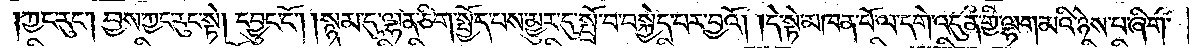ཀྱང་རུང༌། བྱས་ཀྱང་རུང་སྟེ། དབྱུང་ངོ༌། །སྙམ་དུ་ལྷན་ཅིག་སྤྱོད་པས་མྱུར་དུ་སྤྲོ་བ་བསྐྱེད་པར་བྱའོ། །དེ་སྟེ་མཁན་པོ་ལ་དགེ་འདུན་གྱི་ལྷག་མའི་ཉེས་པ་ཞིག་
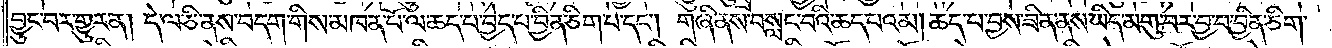བྱུང་བར་གྱུར་ན། དེ་ལ་ཅི་ནས་བདག་གིས་མཁན་པོ་ལ་ཆད་པ་བྱེད་པ་བྱིན་ཅིག་པ་དང༌། གཞི་ནས་བསླང་བའི་ཆད་པའམ། ཆད་པ་བྱས་ཟིན་ནས་ཡིད་མགུ་བར་བྱ་བ་བྱིན་ཅིག་
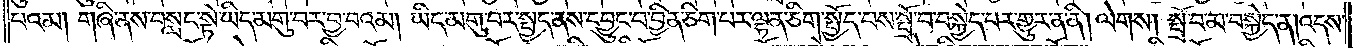པའམ། གཞི་ནས་བསླང་སྟེ་ཡིད་མགུ་བར་བྱ་བའམ། ཡིད་མགུ་བར་སྤྱད་ནས་དབྱུང་བ་བྱིན་ཅིག་པར་ལྷན་ཅིག་སྤྱོད་པས་སྤྲོ་བ་བསྐྱེད་པར་གྱུར་ན་ནི། ལེགས། སྤྲོ་བ་མ་བསྐྱེད་ན། འདས་
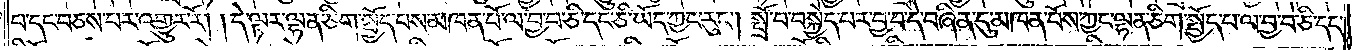པ་དང་བཅས་པར་འགྱུར་རོ། །དེ་ལྟར་ལྷན་ཅིག་སྤྱོད་པས་མཁན་པོ་ལ་བྱ་བ་ཅི་དང་ཅི་ཡོད་ཀྱང་རུང༌། སྤྲོ་བ་བསྐྱེད་པར་བྱ་བ་དེ་བཞིན་དུ་མཁན་པོས་ཀྱང་ལྷན་ཅིག་སྤྱོད་པ་ལ་བྱ་བ་ཅི་དང་
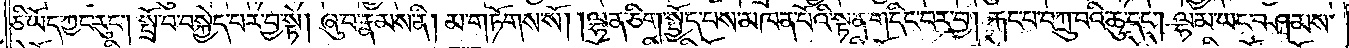ཅི་ཡོད་ཀྱང་རུང༌། སྤྲོ་བ་བསྐྱེད་པར་བྱ་སྟེ། ཞུ་བ་རྣམས་ནི། མ་གཏོགས་སོ། །ལྷན་ཅིག་སྤྱོད་པས་མཁན་པོའི་སྟན་གདིང་བར་བྱ། རྐང་པ་བཀྲུ་བའི་ཆུ་དང༌། ལྷམ་ཡང་བཤམས་
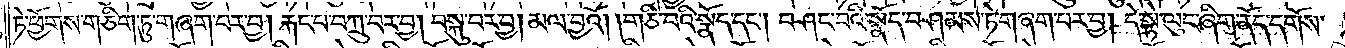ཏེ་ཕྱོགས་གཅིག་ཏུ་གཞག་པར་བྱ། རྐང་པ་བཀྲུ་བར་བྱ། བསྐུ་བར་བྱ། མལ་བྱའོ། །གཅི་བའི་སྣོད་དང༌། བཤང་བའི་སྣོད་བཤམས་ཏེ་གཞག་པར་བྱ། དེ་སྟེ་ལུང་ཞིག་ནོད་དགོས་
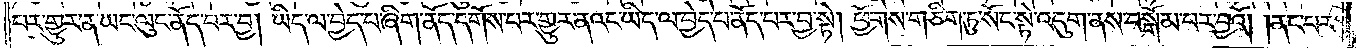པར་གྱུར་ན་ཡང་ལུང་ནོད་པར་བྱ། ཡིད་ལ་བྱེད་པ་ཞིག་ནོད་དགོས་པར་གྱུར་ནའང་ཡིད་ལ་བྱེད་པ་ནོད་པར་བྱ་སྟེ། ཕྱོགས་གཅིག་ཏུ་སོང་སྟེ་འདུག་ནས་བསྒོམ་པར་བྱའོ། །ནང་པར་
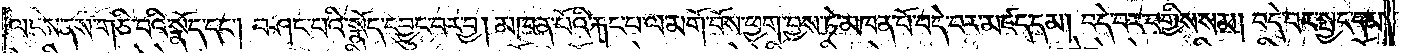ལངས་ནས་གཅི་བའི་སྣོད་དང༌། བཤང་བའི་སྣོད་དབྱུང་བར་བྱ། མཁན་པོའི་རྐང་པ་ལ་མགོ་བོས་ཕྱག་བྱས་ཏེ་མཁན་པོ་བདེ་བར་མཛད་དམ། བདེ་བར་བགྱིས་སམ། བདེ་བར་སྤྱད་དམ་
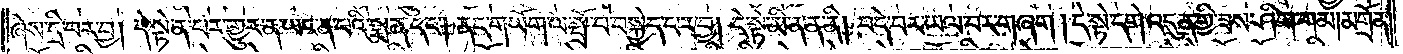ཞེས་དྲི་བར་བྱ། དེ་སྟེན་པར་གྱུར་ན་ཡང་ན་པའི་སྨན་དང༌། ནད་གཡོག་ལ་སྤྲོ་བ་བསྐྱེད་པར་བྱ། དེ་སྟེ་མི་ན་ན་ནི། བདེ་བར་ཡལ་བར་གཞག །དེ་སྟེ་དགེ་འདུན་གྱི་ཟས་ཤིག་གམ། མགྲོན་
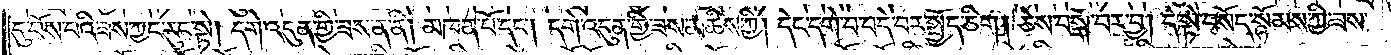དུ་བོས་པའི་ཟས་ཀྱང་རུང་སྟེ། དགེ་འདུན་གྱི་ཟས་ན་ནི། མཁན་པོ་དང༌། དགེ་འདུན་གྱི་ཟས་མཆིས་ཀྱི། དེང་དགེ་བ་བདེ་བར་སྤྱོད་ཅིག། ཅེས་བསྒོ་བར་བྱ། དེ་སྟེ་བསོད་སྙོམས་ཀྱི་ཟས་
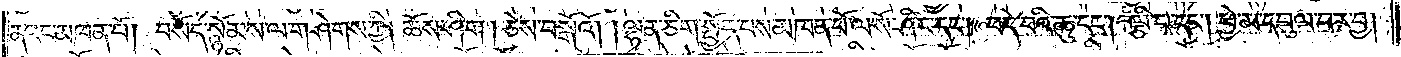ནའང་མཁན་པོ། བསོད་སྙོམས་ལ་གཤེགས་ཀྱི། ཆོས་ཤིག །ཅེས་བསྒོའོ། །ལྷན་ཅིག་སྤྱོད་པས་མཁན་པོ་ལ་སོ་ཤིང་དང༌། བདེ་བའི་ཆུ་དང༌། ལྕི་བ་དང༌། ཕྱེ་མ་དབུལ་བར་བྱ།
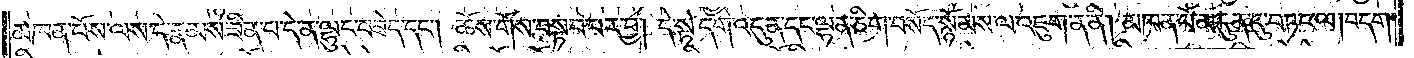མཁན་པོས་ལས་དེ་རྣམས་ཟིན་པ་དེ་ན་ལྷུང་བཟེད་དང༌། ཆོས་གོས་བསྟབ་པར་བྱ། དེ་སྟེ་དགེ་འདུན་དང་ལྷན་ཅིག་བསོད་སྙོམས་ལ་འཇུག་ན་ནི། མཁན་པོ་མདུན་དུ་བཏང་ལ། བདག་
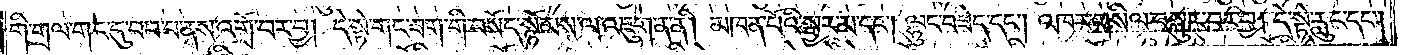གི་གྲལ་གང་དུ་བབ་པ་ནས་འགྲོ་བར་བྱ། དེ་སྟེ་གང་ཟག་གི་བསོད་སྙོམས་ལ་འཇུག་ན་ནི། མཁན་པོའི་སྦྱར་མ་དང༌། ལྷུང་བཟེད་དང༌། འཁར་གསིལ་བསྐུར་བར་བྱ། དེ་སྟེ་རླུང་དང༌།
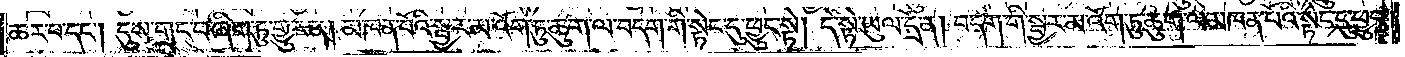ཆར་པ་དང༌། དུས་གྲང་བ་ཞིག་ཏུ་གྱུར་ན། མཁན་པོའི་སྦྱར་མ་འོག་ཏུ་ཆུག་ལ་བདག་གི་སྟེང་དུ་ཕྱུང་སྟེ། དེ་སྟེ་ཡུལ་དྲོ་ན། བདག་གི་སྦྱར་མ་འོག་ཏུ་ཆུག་ལ་མཁན་པོའི་སྟེང་དུ་ཕྱུང་
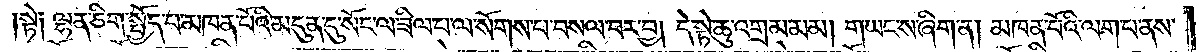སྟེ༑ ལྷན་ཅིག་སྤྱོད་པ་མཁན་པོའི་མདུན་དུ་སོང་ལ་ཟིལ་པ་ལ་སོགས་པ་བསལ་བར་བྱ། དེ་སྟེ་ཆུ་འགྲམ་མམ། གཡང་ས་ཞིག་ན། མཁན་པོའི་ལག་པ་ནས་
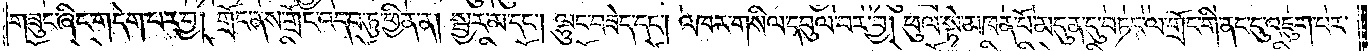གཟུང་ཞིང་གདེག་པར་བྱ། གྲོང་ནས་གྲོང་འདབ་ཏུ་ཕྱིན་ན། སྦྱར་མ་དང༌། ལྷུང་བཟེད་དང༌། འཁར་གསིལ་དབུལ་བར་བྱ། ཕུལ་སྟེ་མཁན་པོ་མདུན་དུ་བཏང་ལ་གྲོང་གི་ནང་དུ་འཇུག་པར་
